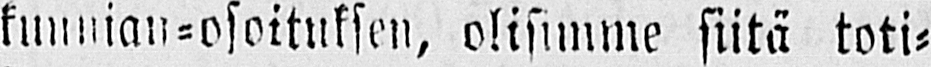kunnian-osoituksen, olisimme siitä toti-
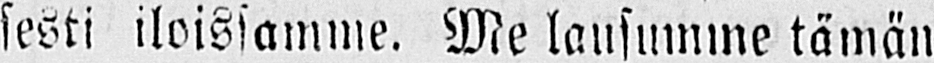sesti iloissamme. Me lausumme tämän
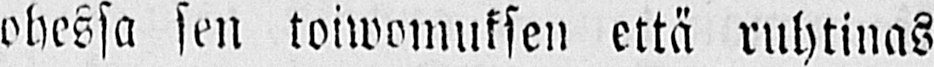ohessa sen toiwomuksen että ruhtinas
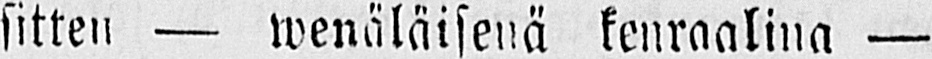sitten — wenäläisenä kenraalina —
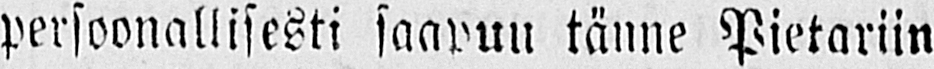persoonallisesti saapun tänne Pietariin
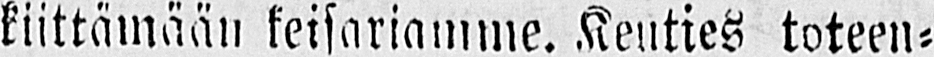kiittämään keisariamme. Kenties toteen-
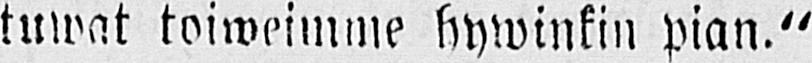tuwat toiweimme hywinkin pian."
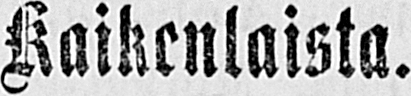Kaikenlaista.
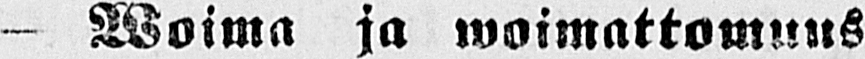— Woima ja woimattomuus.
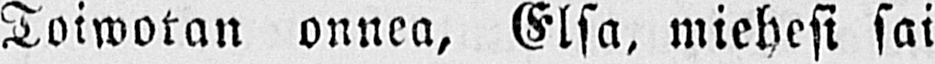Toiwotan onnea, Elsa, miehesi sai
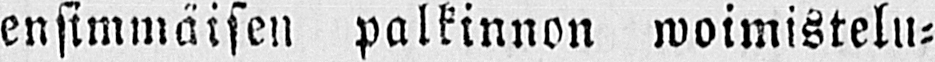ensimmäisen palkinnon woimistelu-
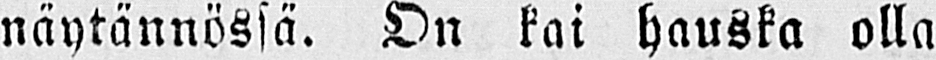näytännössä. On kai hauska olla
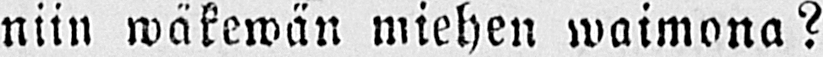niin wäkewän miehen waimona?
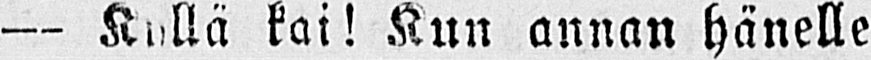— Kyllä kai! Kun annan hänelle
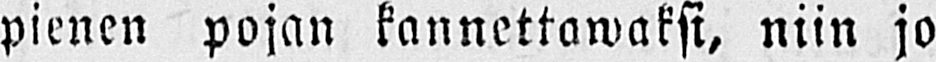pienen pojan kannettawaksi, niin jo
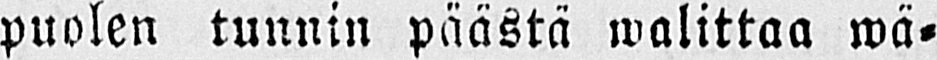puolen tunnin päästä walittaa wä-
